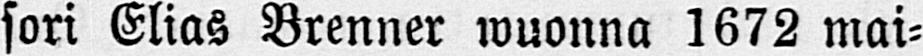sori Elias Brenner wuonna 1672 mai-
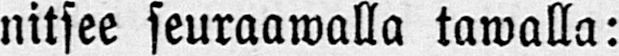nitsee seuraawalla tawalla:
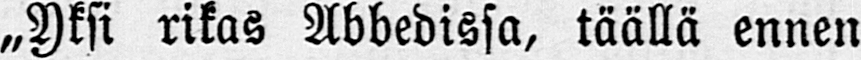„Yksi rikas Abbedissa, täällä ennen
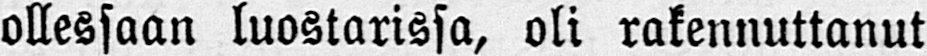ollessaan luostarissa, oli rakennuttanut
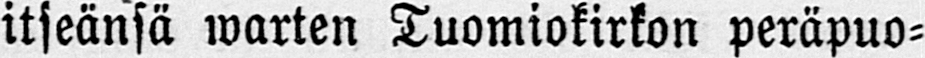itseänsä warten Tuomiokirkon peräpuo-
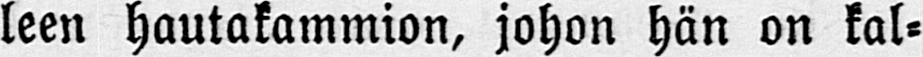leen hautakammion, johon hän on kal-
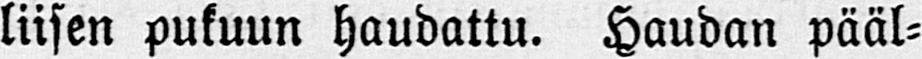liisen pukuun haudattu. Haudan pääl-
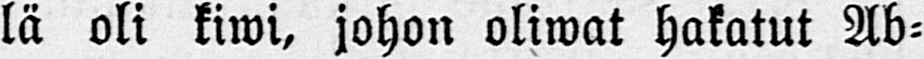lä oli kiwi, johon oliwat hakatut Ab-
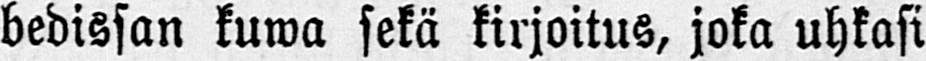bedissan kuwa sekä kirjoitus, joka uhkasi
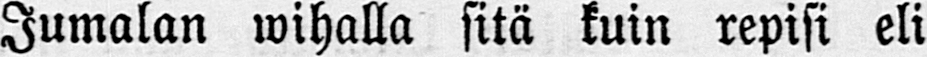Jumalan wihalla sitä kuin repisi eli
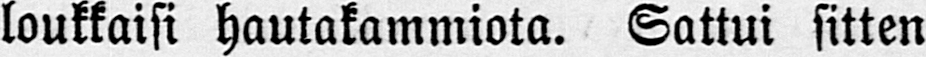loukkaisi hautakammiota. Sattui sitten
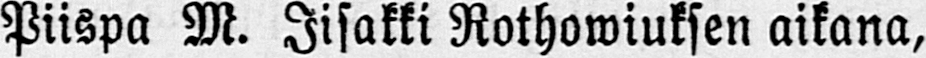Piispa M. Iisakki Rothowiuksen aikana,
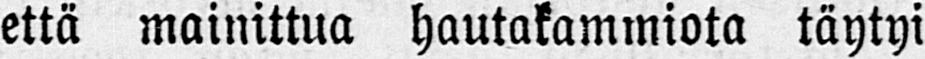että mainittua hautakammiota täytyi
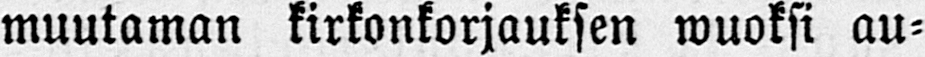muutaman kirkonkorjauksen wuoksi au-
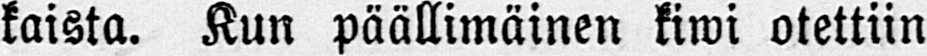kaista. Kun päällimäinen kiwi otettiin
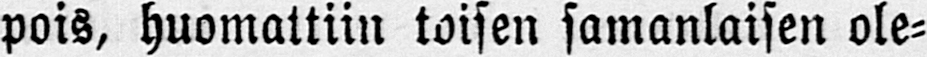pois, huomattiin toisen samanlaisen ole-
